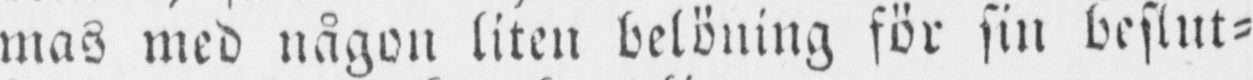mas med någon liten belöning för sin beslut-
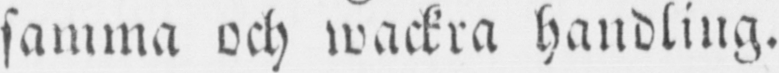samma och wackra handling.
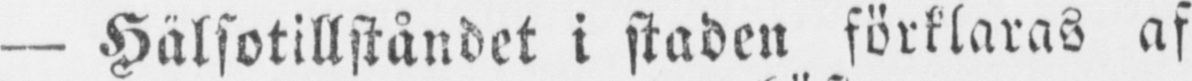— Hälsotillståndet i staden förklaras af
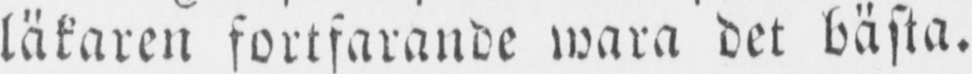läkaren fortfarande wara det bästa.
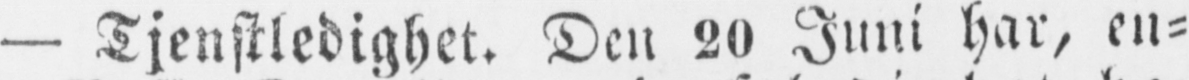— Tjenstledighet. Den 20 Juni har, en-
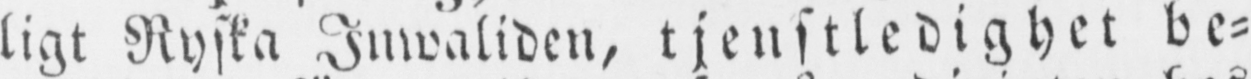ligt Ryska Inwaliden, tjenstledighet be-
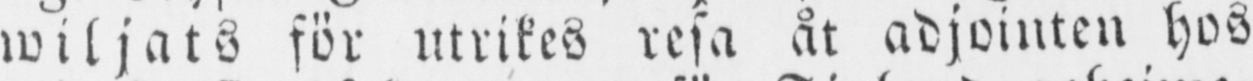wiljats för utrikes resa åt adjointen hos
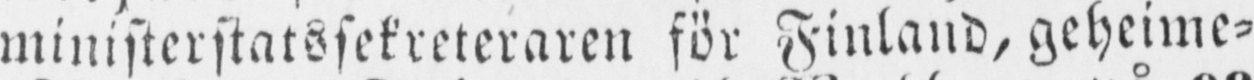ministerstatssekreteraren för Finland, geheime-
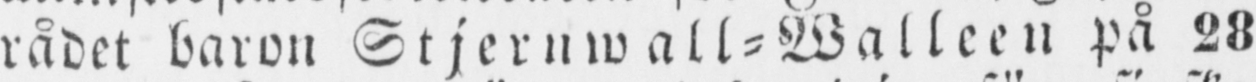rådet baron Stjernwall-Walleen på 28
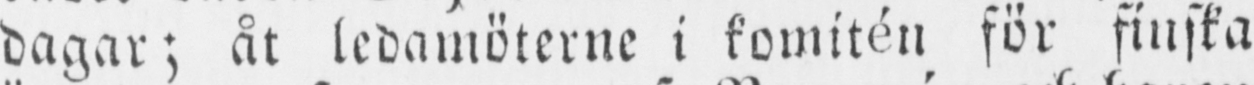dagar; åt ledamöterne i komitén för finska
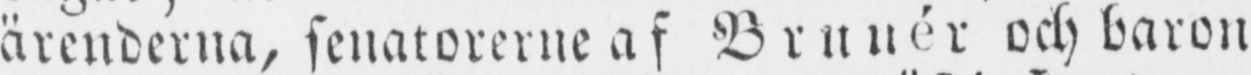ärenderna, senatorerne af Brunér och baron
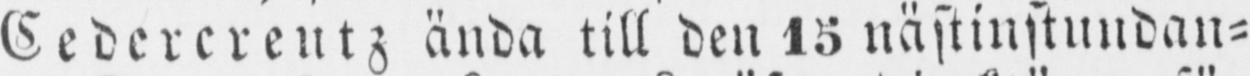Cedercreutz ända till den 15 nästinstundan-
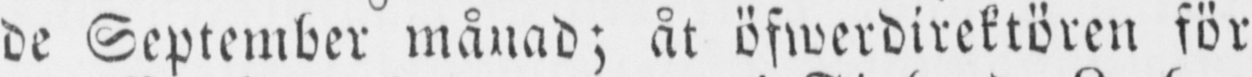de September månad, åt öfwerdirektören för
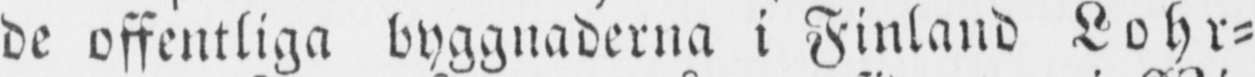de offentliga byggnaderna i Finland Lohr-
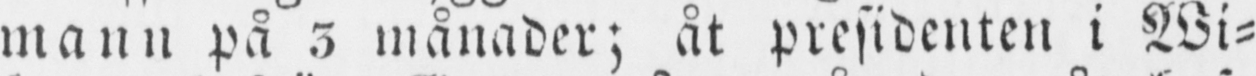mann på 3 månader; åt presidenten i Wi-
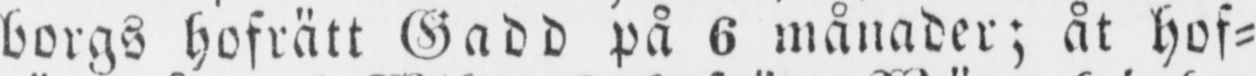borgs hofrätt Gadd på 6 månader; åt hof-
